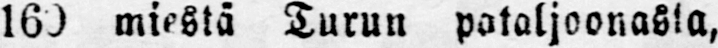160 miestä Turun pataljoonasta,
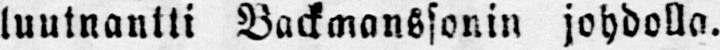luutnantti Backmanssonin johdolla.
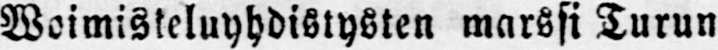Woimisteluyhdistysten marssi Turun
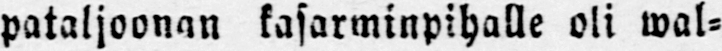pataljoonan kasarminpihalle oli wal-
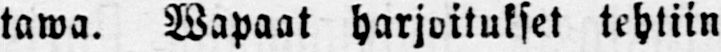tawa. wapaat harjoitukset tehtiin
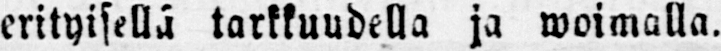erityisellä tarkkuudella ja woimalla.
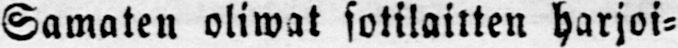Samaten oliwat sotilaitten harjoi-
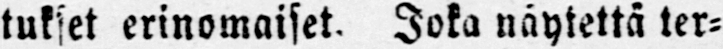tukset erinomaiset. Joka näytettä ter-
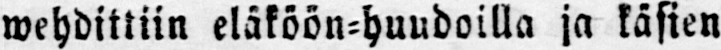wehdittiin eläköön-huudoilla ja käsien
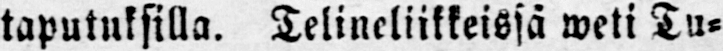taputuksilla. Telineliikkeissä weti Tu-
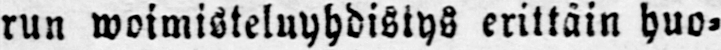run woimisteluyhdisiys erittäin huo-
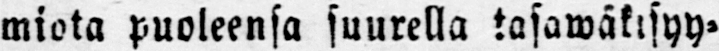miota puoleensa suurella tasawäkisyy-
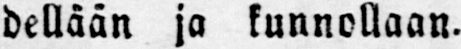dellään ja kunnollaan,
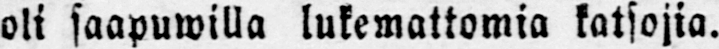oli saapuwilla lukemattomia katsojia.
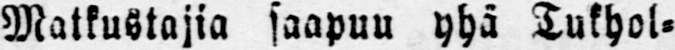Matkustajia saapuu yhä Tukhol-
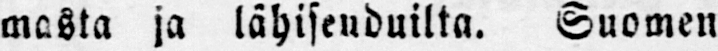masta ja lähiseuduilta. Suomen
